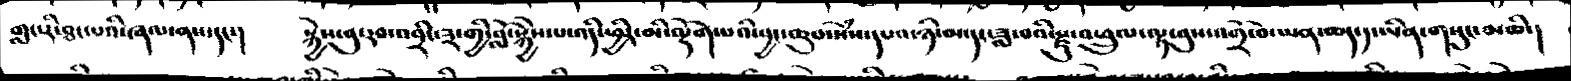གླང་རི་ཐར་པའི་ཞལ་ནས་དང་།  སྐྱེས་བུ་རབ་འབྲིང་༣་གྱི་བློ་སྐྱེས་པ་འདི་ཕྱིར་མི་ལྡོག་པའི་བྱང་ཆུབ་སེཾས་དཔའ་ཉི་མ་དང་ཟླ་བའི་རྫུ་འཕྲུལ་ལྟ་བུས་འགྲེ་བོ་ཡན་ཆད་༡་ཡིན་གསུང་མཆི་།
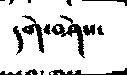དགེ་བཤེས་
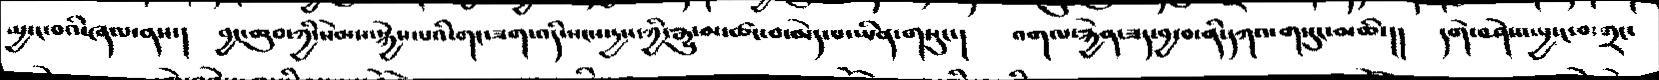མྱ་ང་བའི་ཞལ་ནས་།  བྱང་ཆུབ་ཀྱི་སེམས་སྐྱེས་པའི་གང་ཟག་འདི་སངས་དྱས་ཀྱི་རྒྱུ་མ་ཚང་བ་མེད་པ་ཡིན་གསུང་།  འགལ་རྐྱེན་ཟད་བྱ་བ་ནི་དཀའ་གསུང་མཆི་།།   དགེ་བཤེས་སྤྱ་ང་བ་གྲང་
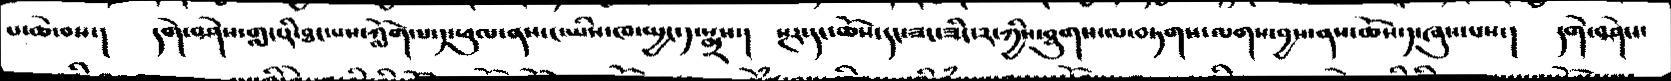པ་ཆེ་བས་།  དགེ་བཤེས་གླང་རི་ཐང་པས་ཀློག་པ་༡་ཕུལ་ནས་ང་ཡིས་ཁ་སྤྱང་༡་སྨྲས་།  སྔར་དང་ཆོས་དང་ཟང་ཟིང་༢་ཀྱིས་ཐུགས་ལ་བཏགས་ལགས་བྱས་ནས་ཆོས་༡་ཞུས་པས་།   དགེ་བཤེས་
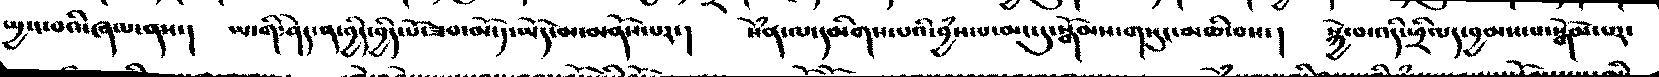སྤྱ་ང་བའི་ཞལ་ནས་།  ཡ་གི་ཤེད་༡་བྱིད་བྱིད་པོ་ཟབ་མོ་༡་ཡོད་མ་མནོས་པར་།  སེཾན་ལ་དམིགས་པའི་བྱཾས་པ་མང་དུ་སྒོམས་གསུང་མཆི་བས་།  སྐྱེ་བ་འདི་ཕྲིལད་བྱམས་པ་སྒོམ་པར་
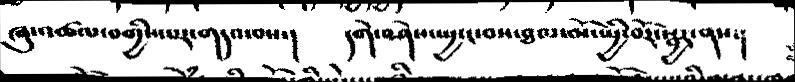ཞུ་འཚལ་བགྱིས་པར་གདའ་བས་།       དགེ་བཤེས་ཡྱ་ང་བས་ཐལ་མོ་ཡྱི་བོར་སྦྱར་ནས་།
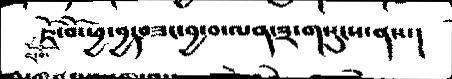ཇོ་བོ་ཕྱ་བྱད་བཟང་བྱ་བ་ལན་༣་གསུངས་ནས་།
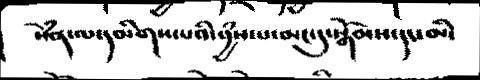སེཾན་ལ་དམིགས་པའི་བྱཾས་པ་མང་དུ་སྒོམས་དང་མི་
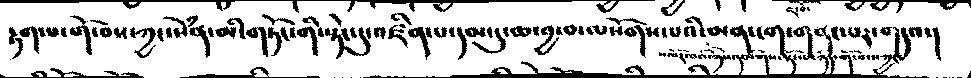རྟག་པ་གོ་བས་ཀྱང་སེཾན་མི་གཏོང་གི་སྟེང་དུ་འཛིན་པ་དམ་དུ་ཆ་བྱ་བ་ལསོགས་པའི་མན་ངག་གནང་པར་གདའ་།
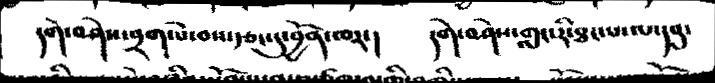དགེ་བཤེས་བྲག་པོ་བས་རྩང་དུ་བྱོན་ཁར་།  དགེ་བཤེས་གླང་རི་ཐང་པ་ལ་དབུ་
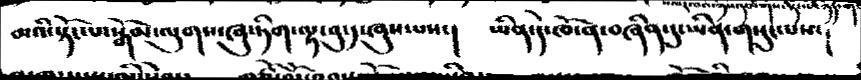མའི་སྟོང་པ་སྒོམ་ལུགས་ཞུ་ཏིག་ལྟ་བུ་༡་ཞུས་པས་།  ཡིན་དེ་ཁོ་ན་བཞིན་དུ་ཡིན་གསུང་པས་།
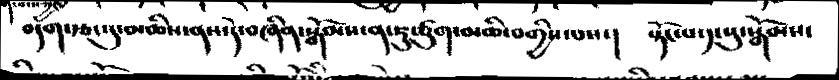བདག་རྩང་དུ་མཆིས་ནས་དེ་བཞིན་སྒོམས་ན་ཇུ་ཚུག་མཆི་བགྱིས་པས་།  སྟོང་པ་༡་པུ་སྒོམས་
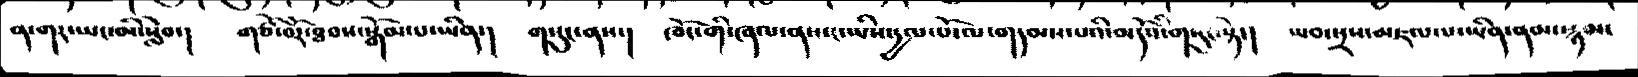ན་གར་ཡང་མི་སླེབ་།  གཙོ་བོར་ཐབས་སྒོམ་པ་ཡིན་།  ག་དུང་ནས་།  ཁོང་གི་ཞལ་ནས་ང་ཡིས་དྱལ་པོ་ལ་གདམས་པའི་མདའི་གསུང་སྟེ་།  ཡབ་སྲས་མཇལ་པ་ཡིན་ནམ་སྙམ་
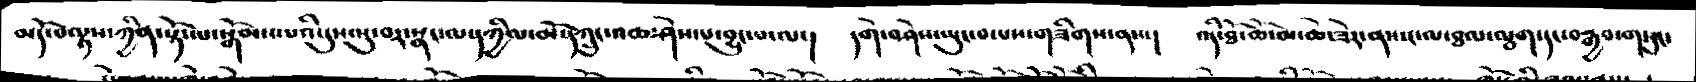མདོ་བལྟས་ཀྱིན་སྟོང་པ་སྒོམ་པའི་དུས་སུ་བར་སྣང་ལ་དཀྱིལ་མོ་དཀྲུང་འཆ་ཤེས་པ་བྱུང་པ་ལ་།   དགེ་བཤེས་ཡུང་བ་པས་གཟིགས་ནས་།   འདི་ཐེ་ཚོཾ་མ་ཆེ་ཟེར་ནས་ང་ལ་ཐལ་ལྕག་དང་བརྒྱབ་གསུང་
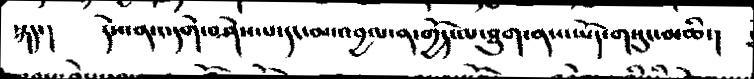སྐད་།   དེས་ནས་དགེ་བཤེས་པ་དང་མ་འབྱལ་ན་གྱོད་ལ་ཐུག་ནས་ཡོད་གསུང་མཆི་།
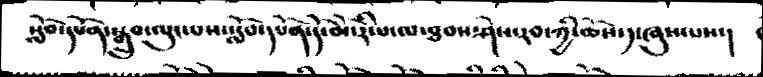སློབ་དཔོན་སྒྲུབ་ལུང་ལས་སློབ་དཔོན་དེ་མོ་རི་པ་ལ་ཐབས་ཤེས་རབ་ཀྱི་ཆོས་༡་ཞུས་པས་།
